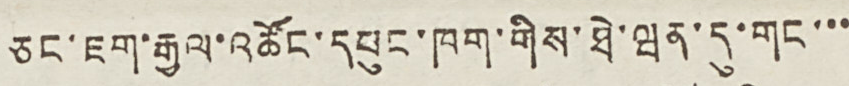ཅང་ཇག་རྒྱལ་འཚོང་དཔུང་ཁག་གིས་ཐེ་ཝན་དུ་གང་་་
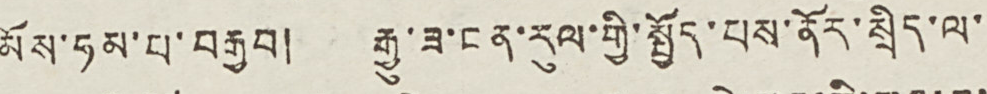མོས་ཧམ་པ་བརྒྱབ། རྒྱུ་ཟ་ངན་རུལ་གྱི་སྤྱོད་པས་ནོར་སྲིད་ལ་
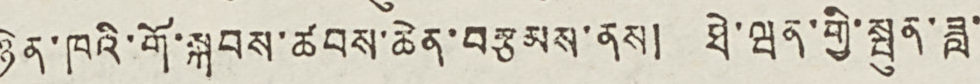ཉེན་ཁའི་གོ་སྐབས་ཚབས་ཆེན་བརྩམས་ནས། ཐེ་ཝན་གྱི་སྤུན་ཟླ་
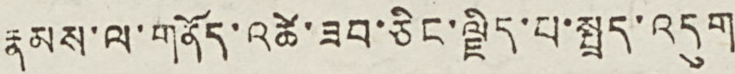རྣམས་ལ་གནོད་འཚེ་ཟབ་ཅིང་ལྗིད་པ་སྤྲད་འདུག
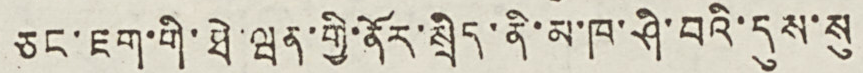ཅང་ཇག་གི་ཐེ་ཝན་གྱི་ནོར་སྲིད་ནི་མ་ཁ་ཤིས་བའི་དུས་སུ
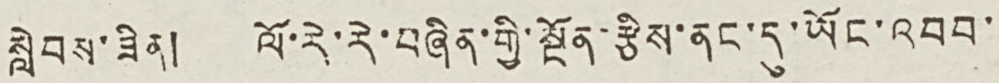སླེབས་ཟིན། ལོ་རེ་རེ་བཞིན་གྱི་སྔོན་རྩིས་ནང་དུ་ཡོང་འབབ་
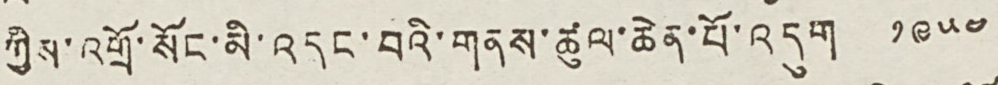ཀྱིས་འགྲོ་སོང་མི་འདང་བའི་གནས་ཚུལ་ཆེན་པོ་འདུག ༡༩༥༤
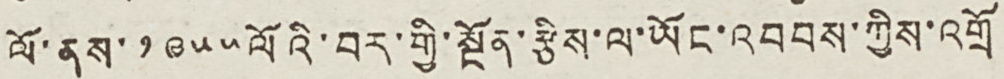ལོ་ནས་ ༡༩༥༥ལོའི་བར་གྱི་སྔོན་རྩིས་ལ་ཡོང་འབབས་ཀྱིས་འགྲོ
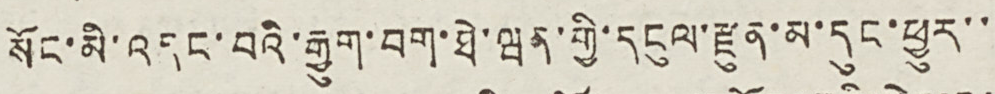སོང་མི་འདང་བའི་རྒྱུག་བག་ཐེ་ཝན་གྱི་དངུལ་རྫུན་མ་དུང་ཕྱུར་་
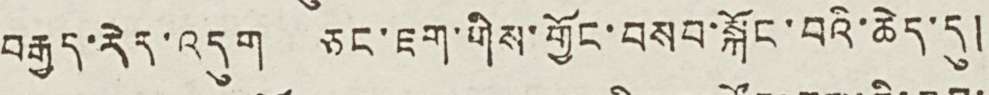བརྒྱད་རེད་འདུག ཅང་ཇག་གིས་གྱོང་བསབ་སྐོང་བའི་ཆེད་དུ།
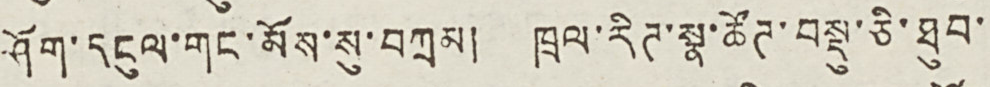ཤོག་དངུལ་གང་མོས་སུ་བཀྲམ། ཁྲལ་རིཊ་སྣ་ཚོཊ་བསྡུ་ཅི་ཐུབ་
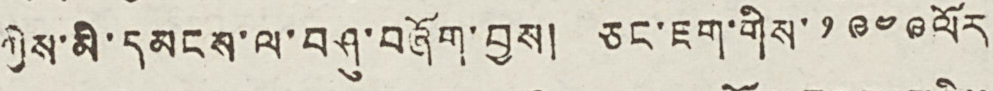ཀྱིས་མི་དམངས་ལ་བཤུ་བཞོག་བྱས། ཅང་ཇག་གིས་ ༡༩༤༩ ལོར
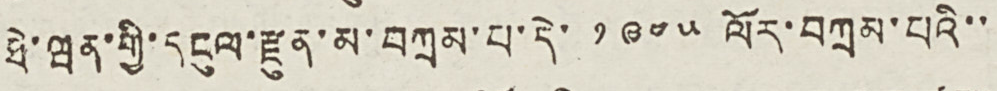ཐེ་ཝན་གྱི་དངུལ་རྫུན་མ་བཀྲམ་པ་དེ་ ༡༩༤༥ ལོར་བཀྲམ་པའི་་
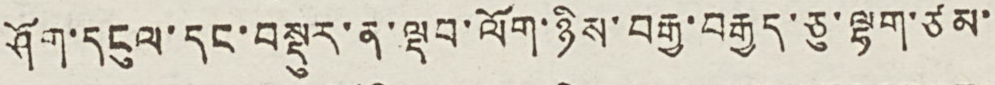ཤོག་དངུལ་དང་བསྡུར་ན་ལྡབ་ལོག་ཉིས་བརྒྱ་བརྒྱད་ཅུ་ལྷག་ཙམ་
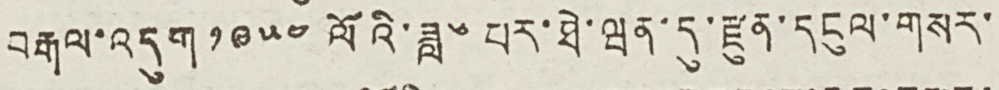བརྒལ་འདུག ༡༩༥༤ ལོའི་ཟླ ༦ པར་ཐེ་ཝན་དུ་རྫུན་དངུལ་གསར་
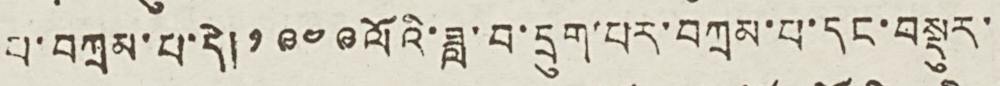པ་བཀྲམ་པ་དེ། ༡༩༤༩ ལོའི་ཟླ་བ་དྲུག་པར་བཀྲམ་པ་དང་བསྡུར་
